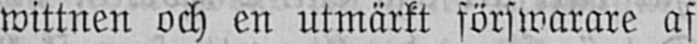wittnen och en utmärkt förswarare af
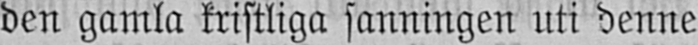den gamla kristliga sanningen uti denne
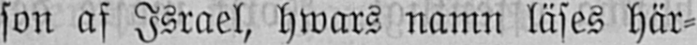son af Israel, hwars namn läses här-
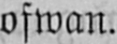ofwan.
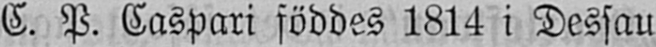C. P. Caspari föddes 1814 i Dessau
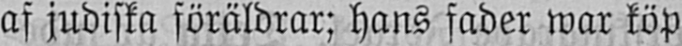af judiska föräldrar; hans fader war köp-
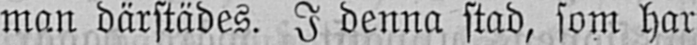man därstädes. I denna stad, som har
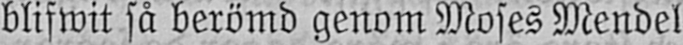blifwit så berömd genom Moses Mendel-
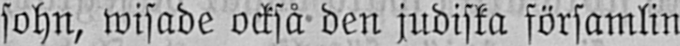sohn, wisade också den judiska församlin-
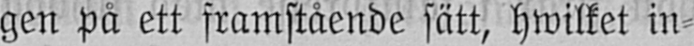gen på ett framstående sätt, hwilket in-
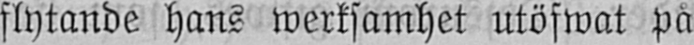flytande hans werksamhet utöfwat på
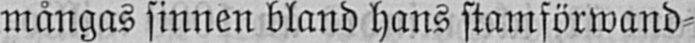mångas sinnen bland hans stamförwand-
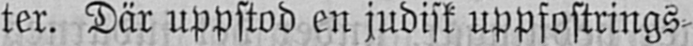ter. Där uppstod en judisk uppfostrings-
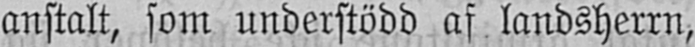anstalt, som understödd af landsherrn,
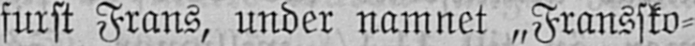furst Frans, under namnet „Franssko-
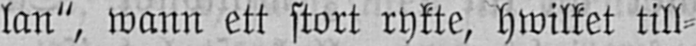lan", wann ett stort rykte, hwilket till-
